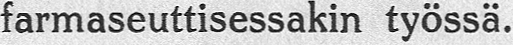farmaseuttisessakin työssä.
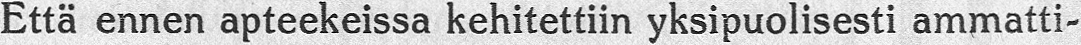Että ennen apteekeissa kehitettiin yksipuolisesti ammatti-
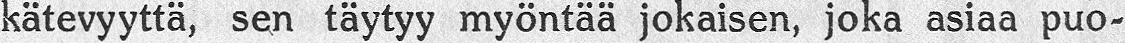kätevyyttä, sen täytyy myöntää jokaisen, joka asiaa puo-
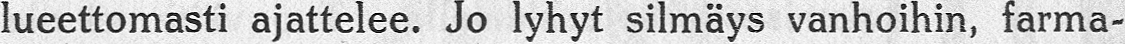lueettomasti ajattelee. Jo lyhyt silmäys vanhoihin, farma-
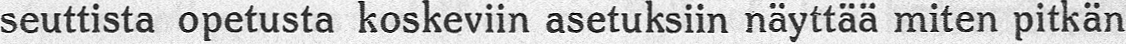seuttista opetusta koskeviin asetuksiin näyttää miten pitkän
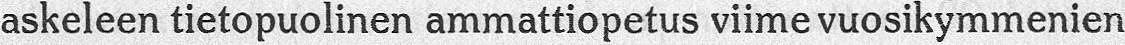askeleen tietopuolinen ammattiopetus viime vuosikymmenien
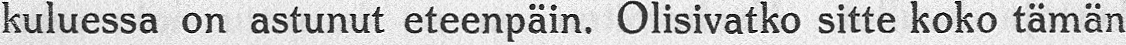kuluessa on astunut eteenpäin. Olisivatko sitte koko tämän
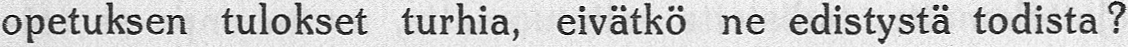opetuksen tulokset turhia, eivätkö ne edistystä todista?
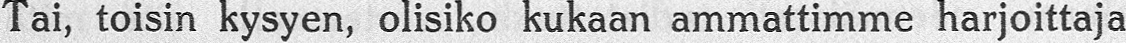Tai, toisin kysyen, olisiko kukaan ammattimme harjoittaja
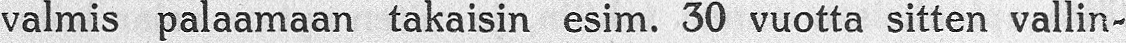valmis palaamaan takaisin esim. 30 vuotta sitten vallin-
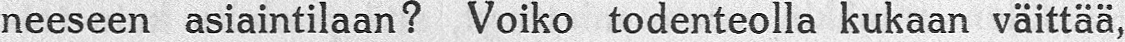neeseen asiaintilaan? Voiko todenteolla kukaan väittää,
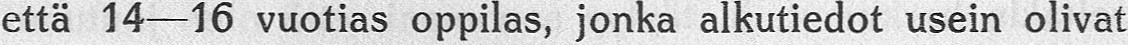että 14 —16 vuotias oppilas, jonka alkutiedot usein olivat
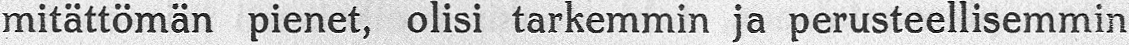mitättömän pienet, olisi tarkemmin ja perusteellisemmin
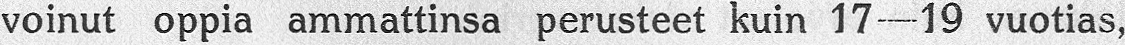voinut oppia ammattinsa perusteet kuin 17 —19 vuotias,
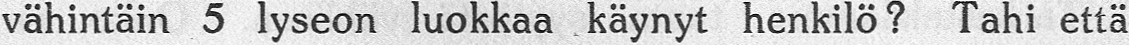vähintäin 5 lyseon luokkaa käynyt henkilö? Tahi että
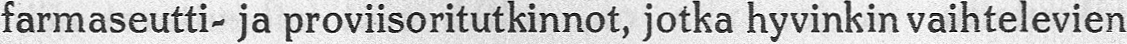farmaseutti- ja proviisoritutkinnot, jotka hyvinkin vaihtelevien
